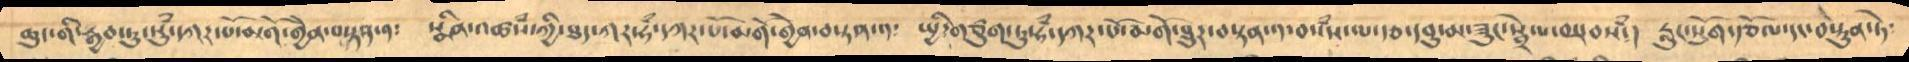ཆུང་གི་རྒྱབ་སུཾ་དཀར་པོ་བདགོ་གྱེན་བསྟན་ན༴   སྨིན་འཚཾས་ཀྱི་ཐད་ཀར་ཧཾ་དཀར་པོ་མགོ་གྱེན་བསྟན་པ༴  སྤྱི་གཙུག་ཏུ་ཧཾ་དཀར་པོ་མགོ་ཐུར་བསྟན་པ་བསཾས་ལ་རྩ་དབུ་མ་ཟུང་སྦྲེལ་བསྡབསཾ༴།  རླུང་སོུག་རྩོལ་དང་བསྟུན་ཏེ་
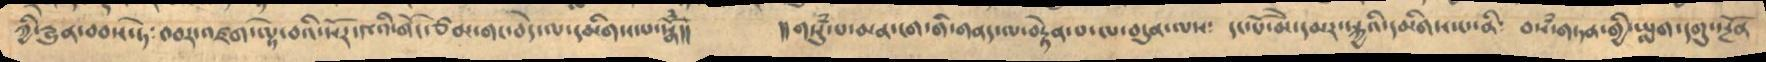ཀྱི་རྱུན་བབས་ཏེ་བབར་འཛག་ལྟེ་བའི་སོར་༤འི་གོང་ཙམ་ལ་དམིགས་པ་རྣོཾ།།  །།གསུཾ་པ་མན་ངག་ལ་བརྟེན་པ་ལ་བདུན་ལས༴  དང་པོ་མོེ་དམར་སྐྱའི་དམིགས་པས་ནི༴  བསཾ་གཏན་གྱི་ཡླག་པསྔོན
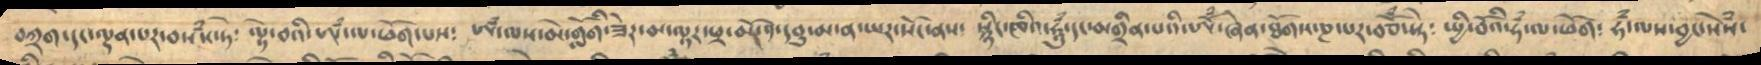བཀྲག་དང་ལྡན་པར་བསཾས་ཏེ༴ ལྟེ་བའི་ཨཾ་ལ་ཕོག་པས༴ ཨཾ་ལས་མེ་གློགི་ཟེར་མ་ལྟར་ཕྲ་བོར་༡དབུ་མ་ན་ཡར་སོང་ནས་  སྙིང་ཁའི་ཧྭུཾ་དང་མགྲིན་པའི་ཨོཾ་ཞེན་ཐོགས་ཎ་ཡར་བཅོཾ་སྟེ༴  སྤྱི་བོའི་ཧཾ་ལ་ཕོགོ༴   ཧཾ་ལས་བྱང་སེཾམ་
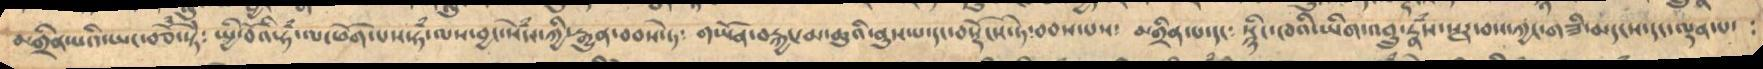མགྲིན་པའིཡང་བཅོཾ་སྟེ༴ སྤྱི་བོའི་ཧཾ་ལངཕོག་པས་ཧཾ་ལས་བྱང་སེཾས་ཀྱི་རྒྱུན་བབས་ཏེ༴  གཡོན་བསྐྱང་མ་ཆུའི་ནུས་པ་དང་བསྟོངས་ཏེ་བབས་པས༴  མགྲིན་པ་དང༴ སྙིང་ཁའི་ཡིག་འབྲུ་རྣཾས་སྔར་བས་ཀྱང་གཟི་མདངས་དང་ལྟན་པ་
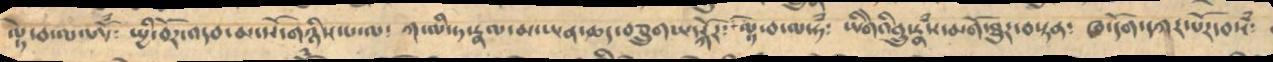ལྟེ་བ་ལས་ཨོཾ༴ སྤྱི་བོར་འདབ་མ་པོ་གཉིས་པ་ལ༴  ཀ་མི་ཏ་སྣལ་མ་དང་ཡན་ཆད་བཅྲུག་པ་སྐོར༴ ལྟེ་བ་མ་ཧྃ༴ ཡིགེའིབྲུ་སྣཾས་མགོ་ཐུར་བ་སྟན༴  ཁ་དོག་དཀར་པོར་བསཾ༴
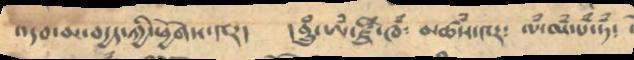འདབ་མ་བརྱད་ཀྱི་ཕྱོགས་༤ར། །བྲུཾ་ཨཾ་ཛྲིཾ་ཁྃ༴ མཚཾས་༤ར༴  ལཾ་མཾ་པཾ་ཏྃ༴
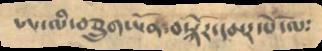ཨ་ལི་བཅྲུགཡོན་བསྐོར་དམར་པོ་ལ༴
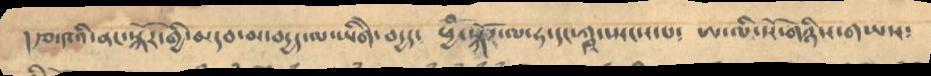།  རྩ་༤འི་ནང་སྐོར་གྱི་མདབ་མ་བདྱད་ལ་ཡིེགངབདྱད་  ཕྱི་སྐོར་ལ་ཧ་དང་ཀྴ་སྤངས་པ༴  ཨ་ལི་སོ་གཉིས་གཡས༴
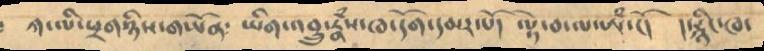ཀ་ལི་ཕྲགཉིས་གཡོན༴ ཡིག་འབྲུ་རྣཾས་ཁ་དོག་དམར་པོ།  ལྟེ་བ་ལ་ཨཾ་ངོ།  །སྙིང་ཁ་
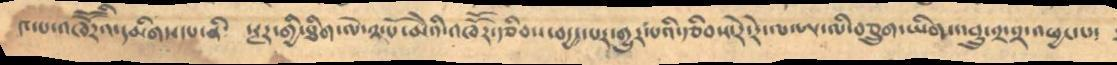༩་པ་འཁོོརའི་དམིགས་པ་ནི༴  སྔར་གྱི་ཐིག་ལེ་༢་པོ་མེའི་འཁོོར་རྩིབས་བདྱད་པར་གྱུར་པའི་རྩིབས་རེ་རེ་ལ་ཨ་ཡིག་བཅྲུག་ཡིག་འབྲུ་༢་༢་འཕྱང་པ༴
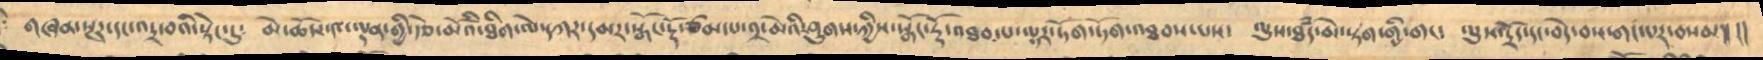གཞན་སྔར་དང་འདྲ་བའི་སྟེང་དུ༴  མེ་ཆོས་༩་ལྡན་གྱི་རྩེ་མེའི་ཐིག་ལེ་དཀར་དམར་སྒོང་རྡོ་ཙམ་པ་༢་ཆེའི་ཤུགས་ཀྱིས་སྒོང་རྡོ་འཐབ་པ་ལྷར་ཏོག་ཏོག་འཐབས་པས་  ལུས་ཐཾད་མེ་ཏོག་གྱི་གང༴  ལུས་དྲེདེ་དང་བདེ་བས་གང་པར་བསམ།།  །།
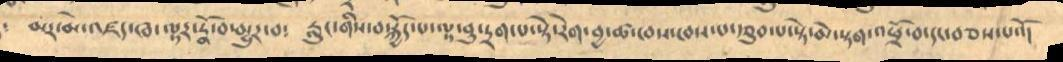༴ མར་མེ་འཛད་ཁ་ལྟར་རྣོ་བ་མྱུར་བ༴  རླུང་གིས་བསྐྱོད་པ་ལྟ་བུ་དྲག་པ་སྟེ་རེག་བྱ་ཚ་ཁས་བས་པ་རྩུབ་སྟེ་མེ་སྟག་འཕྲོ་བ་དང་བཅས་པའོ།
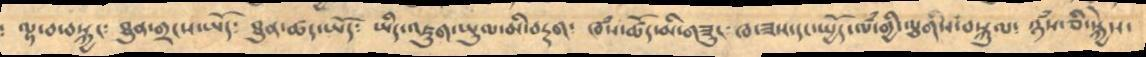ལྟ་བ་བསྐྱང༴ ཐུན་གྲངས་ཡོད༴ ཐུན་ཚད་ཡོད༴ ཡིད་འཇུག་ཡུལ་མི་བརྟག༴ ཁཾས་ཚོད་མི་གཟུང༴  ཁ་ཟས་དང་སྤྱོད་ལཾ་གྱི་ལྕགིས་བསྐུལ༴ ཉཾས་ཅི་སྐྱེས་
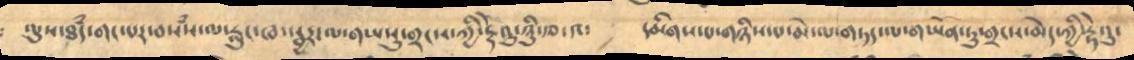ལུས་ཐཾད་གང་པར་བསཾས་ལ་རླུང་ཁ་སྦྱར་ལ་གཡསུ་གྲངས་ཀྱི་རྡེའུ་ཉིུ་རྩ་༩༴ དམིགས་པ་གཉིས་པ་མེ་ལ་གཏད་ལ་གཡོན་ཏུ་གྲངས་མེད་ཀྱི་རྡེའུ་
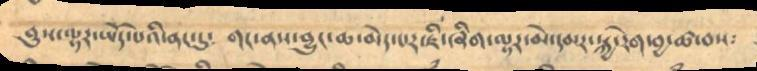ནུསས་ལྟར་ཡོད་པའི་ནང་དུ༴ གང་ནས་བྱུང་ཆ་མེད་པར་ཇི་ཞིག་ལྟར་མེ་དམར་སྐྱ་རེག་བྱ་ཚ་བས༴
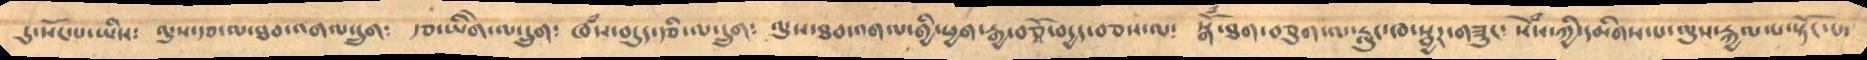དུ་སོང་པ་ཡིས༴  ལུས་རྩ་ལ་ཐབ་འགལ་དྲུག༴  རྩ་ཡིེག་ལ་དྲུག༴  ཁཾས་བདུད་རྩི་ལ་དྲུག༴  ལུས་ཐབ་འགལ་གྱི་ཕྱག་རྒྱ་བཅོ་བདྱད་བཅས་ལ༴ སྒོ་ཐག་བཅུག་ལ་རླུང་ཁ་སྦྱར་གཟུང་སེཾས་ཀྱི་དམིགས་པ་ལུས་རྐྱལ་པ་སྟོང་པ་
